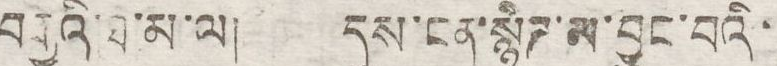བརྒྱའི་ཐ་མ་ལ། དུས་ངན་སྙིཌ་མ་བྱུང་བའི་
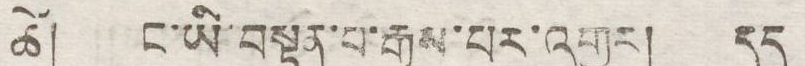ཚེ། ང་ཡི་བསྟན་པ་རྒྱས་པར་འགྱུར། དད
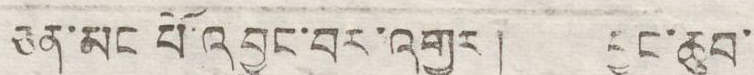ཅན་མང པོ་འབྱུང་བར་འགྱུར། བྱང་ཆུབ་
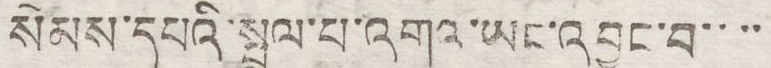སེམས་དཔའི་སྤྲུལ་པ་འགའ་ཡང་འབྱུང་བ་་་་
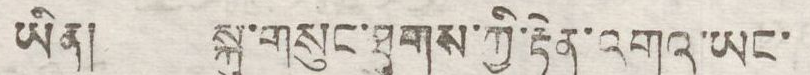ཡིན། སྐུ་གསུང་ཐུགས་ཀྱི་རྟེན་འགའ་ཡང་
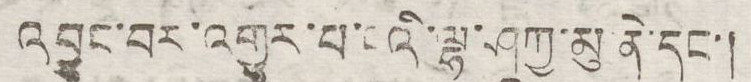འབྱུང་བར་འགྱུར་པ་ངའི་ལྷ་ཤྰཀྱ་མུ་ནེ་དང་།
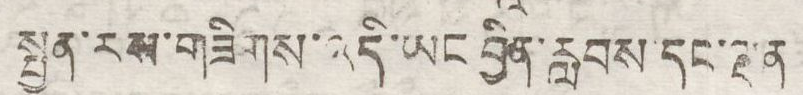སྤྱན་རས་གཟིགས་འདི་ཡང་བྱིན་རླབས་དང་ལྡན་
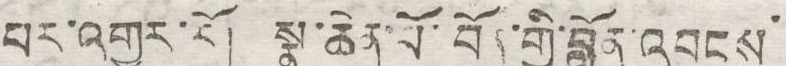པར་འགྱུར་རོ། སྣ་ཆེན་པོ་བོན་གྱི་བློན་འབངས་
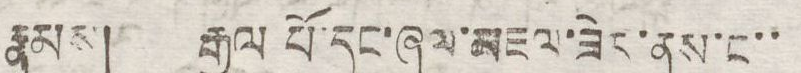རྣམས། རྒྱལ་པོ་དང་ཞལ་མཇལ་ཟེར་ནས་ང་་
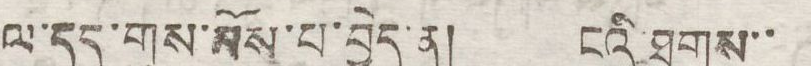ལ་དད་གུས་མོས་པ་བྱེད་ན། ངའི་ཐུགས་་
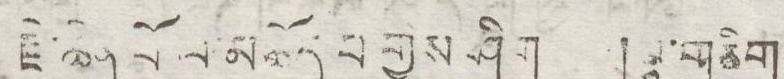རྗེ་ཆེན་པོ་མ་མཆོད་པ གྱིས་ཤིག །ལྷ་གཅིག
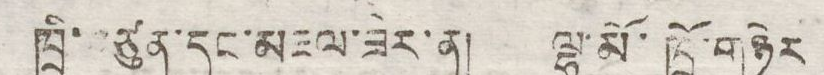ཁྲི་བཙུན་དང་མཇལ་ཟེར་ན། ལྷ་མོ་ཁྲོ་གཉེར
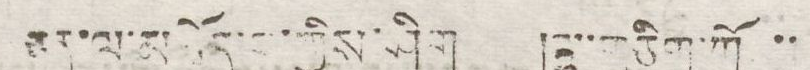ཅན་ལ་མཆོད་པ་གྱིས་ཤིག །ལྷ་གཅིག་ཀོ་་
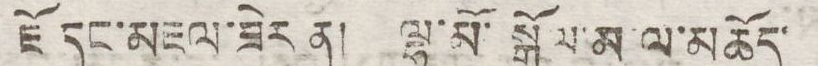ཇོ དང་མཇལ་ཟེར ན། ལྷ་མོ་སྒྲོལ་མ་ལ་མཆོད་
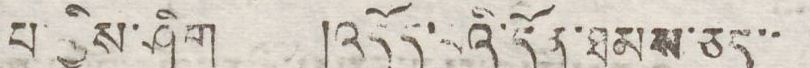པ་གྱིས་ཤིག །འདོད་པའི་དོན་ཐམས་ཅད་་
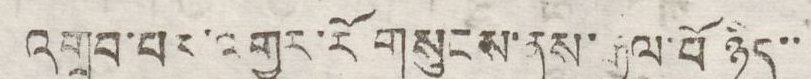འགྲུབ་པར་འགྱུར་རོ གསུངས་ནས་རྒྱལ་པོ ཉིད་་
